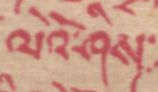ལེའོ་ཤིས་
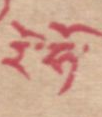རོ་ཧོ་
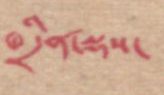དྲིན་ལྟས་
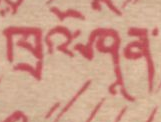ཁྲའོ་ཤཱིན་
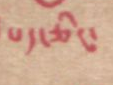པད་ཅིང་
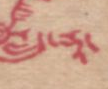རླུད་ཏཱ་
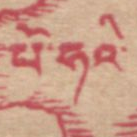པོ་ཧའི་
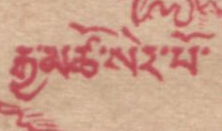རྒྱ་མཚོ་སེར་པོ་
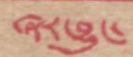ཞར་བྱུང་
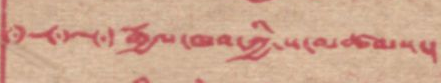རྒྱལ་ཁབ་ཀྱི་ས་མཚམས།
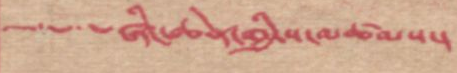ཞིང་ཆེན་གྱི་ས་མཚམས།
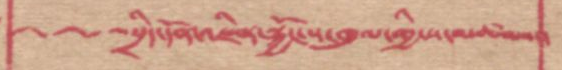སྲིད་དོན་འཛིན་སྐྱོང་ས་ཁུལ་གྱི་ས་མཚམས།
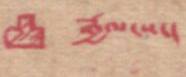རྒྱལ་ས།
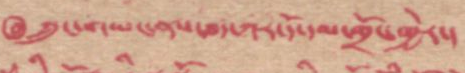ཀྲུང་གཡང་ནས་ཐད་ཀར་དོ་དམ་གྲོང་ཁྱེར།
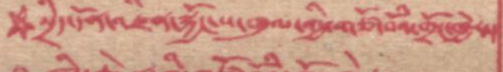★སྲིད་དོན་འཛིན་སྐྱོང་ས་ཁུལ་གྱི་གཙོ་བོའི་གྲོང་ཁྱེར།
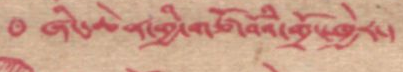ཞིང་ཆེན་གྱི་གཙོ་བོའི་གྲོང་ཁྱེར།
